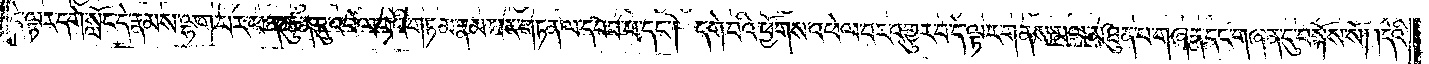དེ་ལྟར་དགེ་སློང་དེ་རྣམས་ལྷག་པར་ཕན་ཚུན་དུ་འབེལ་བའི་གཏམ་རྣམ་པར་གཏན་ལ་དབབ་པ་དང༌། དགེ་བའི་ཕྱོགས་འཕེལ་བར་འགྱུར་པ་དེ་ལྟར་གནས་མལ་མཐུན་པ་གཞན་དང་གཞན་དུ་བསྐོས་སོ། །དེའི་
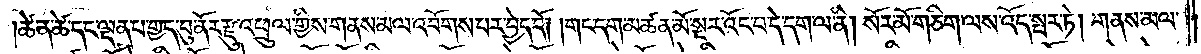ཚེ་ན་ཚེ་དང་ལྡན་པ་གྱད་བུ་ནོར་རྫུ་འཕྲུལ་གྱིས་གནས་མལ་འབོགས་པར་བྱེད་དོ། །གང་དག་མཚན་མོ་སྔར་འོང་བ་དེ་དག་ལ་ནི། སོར་མོ་གཅིག་ལས་འོད་སྤར་ཏེ། གནས་མལ་
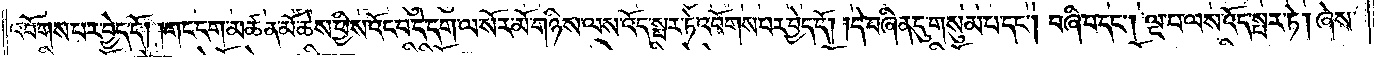འབོགས་པར་བྱེད་དོ། །གང་དག་མཚན་མོ་ཆེས་ཕྱིས་འོང་བ་དེ་དག་ལ་སོར་མོ་གཉིས་ལས་འོད་སྤར་ཏེ་འབོགས་པར་བྱེད་དོ། །དེ་བཞིན་དུ་གསུམ་པ་དང༌། བཞི་པ་དང༌། ལྔ་པ་ལས་འོད་སྤར་ཏེ། ཞེས་
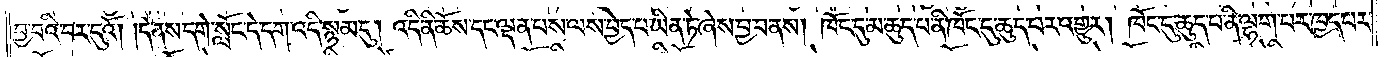བྱ་བའི་བར་དུའོ། །དེ་ནས་དགེ་སློང་དེ་དག་འདི་སྙམ་དུ། འདི་ནི་ཆོས་དང་ལྡན་པས་ལས་བྱེད་པ་ཡིན་ཏེ་ཞེས་བྱ་བ་ནས། ཁོང་དུ་མ་ཆུད་པ་ནི་ཁོང་དུ་ཆུད་པར་འགྱུར། ཁོང་དུ་ཆུད་པ་ནི་ལྷག་པར་ཁྱད་པར་
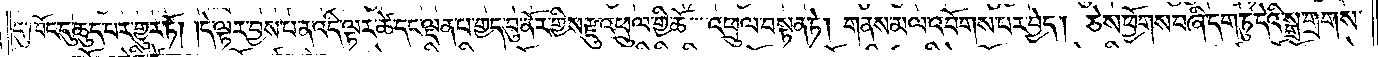དུ་ཁོང་དུ་ཆུད་པར་གྱུར་ཏོ། །དེ་ལྟར་བྱས་པ་ན་འདི་ལྟར་ཚེ་དང་ལྡན་པ་གྱད་བུ་ནོར་གྱིས་རྫུ་འཕྲུལ་གྱི་ཆོ་འཕྲུལ་བསྟན་ཏེ། གནས་མལ་འབོགས་པར་བྱེད། ཅེས་ཕྱོགས་བཞི་དག་ཏུ་དེའི་སྒྲ་གྲགས་
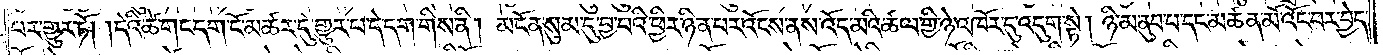པར་གྱུར་ཏོ། །དེའི་ཚེ་གང་དག་ངོ་མཚར་དུ་གྱུར་པ་དེ་དག་གིས་ནི། མངོན་སུམ་དུ་བྱ་བའི་ཕྱིར་ཉིན་པར་འོངས་ནས་འོད་མའི་ཚལ་གྱི་ཉེ་འཁོར་དུ་འདུག་སྟེ། ཉི་མ་ནུབ་པ་དང་མཚན་མོ་འོང་བར་བྱེད་
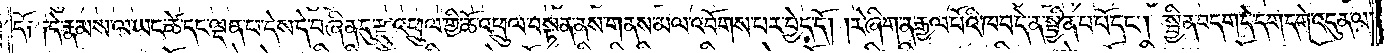དོ། །དེ་རྣམས་ལ་ཡང་ཚེ་དང་ལྡན་པ་དེས་དེ་བཞིན་དུ་རྫུ་འཕྲུལ་གྱི་ཆོས་འཕྲུལ་བསྟན་ནས་གནས་མལ་འབོགས་པར་བྱེད་དོ། །རེ་ཞིག་ན་རྒྱལ་པོའི་ཁབ་དེ་ན་སྦྱིན་པ་པོ་དང༌། སྦྱིན་བདག་དེ་དག་དགེ་འདུན་ལ་
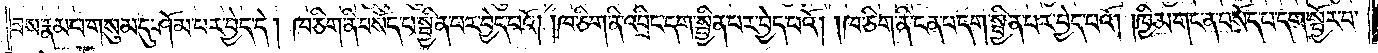ཟས་རྣམ་པ་གསུམ་དུ་ཤོམ་པར་བྱེད་དེ། ཁ་ཅིག་ནི་བསོད་པ་སྦྱིན་པར་བྱེད་པའོ། །ཁ་ཅིག་ནི་འབྲིང་དག་སྦྱིན་པར་བྱེད་པའོ། །ཁ་ཅིག་ནི་ངན་པ་དག་སྦྱིན་པར་བྱེད་པའོ། །ཁྱིམ་གང་ན་བསོད་པ་དག་སྦྱོར་བ་
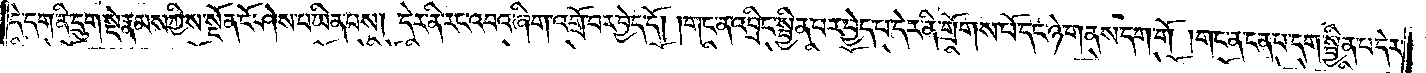དེ་དག་ནི་དྲུག་སྡེ་རྣམས་ཀྱིས་སྔོན་ངོ་ཤེས་པ་ཡིན་པས། དེར་ནི་རང་འབའ་ཞིག་འགྲོ་བར་བྱེད་དོ། །གང་ན་འབྲིང་སྦྱིན་པར་བྱེད་པ་དེར་ནི་གྲོགས་པོ་དང་ཉེ་གནས་དག་གོ །གང་ན་ངན་པ་དག་སྦྱིན་པ་དེར་
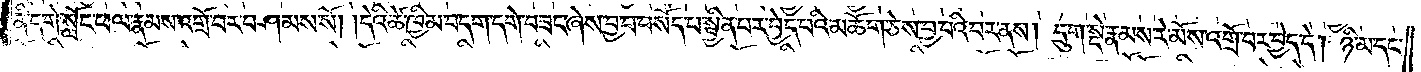ནི་དགེ་སློང་ཕལ་རྣམས་འགྲོ་བར་བཤམས་སོ། །དེའི་ཚེ་ཁྱིམ་བདག་དགེ་བཟང་ཞེས་བྱ་བ་བསོད་པ་སྦྱིན་པར་བྱེད་པའི་མཆོག་ཅེས་བྱ་བའི་བར་ནས། དྲུག་སྡེ་རྣམས་རེ་མོས་འགྲོ་བར་བྱེད་དེ། ཉི་མ་དང་
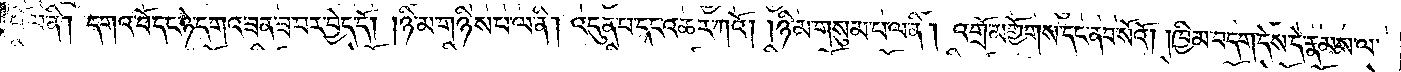པོ་ལ་ནི། དགའ་བོ་དང་ཉེ་དགའ་ཟན་ཟ་བར་བྱེད་དོ། །ཉི་མ་གཉིས་པ་ལ་ནི། འདུན་པ་དང་འཆར་ཀའོ། །ཉི་མ་གསུམ་པ་ལ་ནི། འགྲོ་མགྱོགས་དང་ནབ་སོའོ། །ཁྱིམ་བདག་དེས་དེ་རྣམས་ལ་
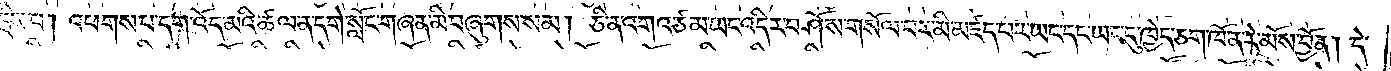དྲིས་པ། འཕགས་པ་དག་འོད་མའི་ཚལ་ན་དགེ་སློང་གཞན་མི་བཞུགས་སམ། ཅི་ན་འགའ་ཙམ་ཡང་འདིར་བཤོས་གསོལ་བར་མི་མཛད་པར་ཡང་དང་ཡང་དུ་ཁྱེད་ཅག་ཁོ་ན་རེ་མོས་བྱོན། དེ་
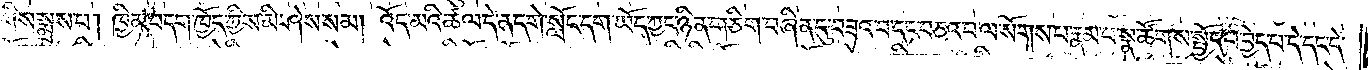དག་གིས་སྨྲས་པ། ཁྱིམ་བདག་ཁྱོད་ཀྱིས་མི་ཤེས་སམ། འོད་མའི་ཚལ་དེ་ན་དགེ་སློང་དག་ཡོད་ཀྱང་ཉིན་གཅིག་བཞིན་དུ་བཟའ་བ་དང་བཅའ་བ་ལ་སོགས་པ་རྣམ་པ་སྣ་ཚོགས་སྤྱོད་པ་བྱེད་པ་དེ་དང་དེ་
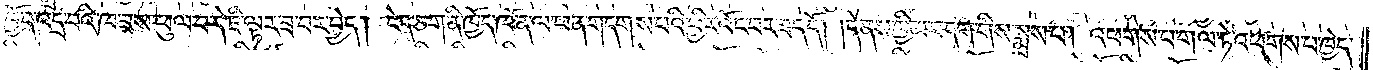དག་ཁྱོད་འདྲ་བའི་ཁ་ཟས་ཕུལ་བ་དེ་ཇི་ལྟར་ཟ་བར་བྱེད། ངེད་ཅག་ནི་ཁྱོད་ཁོ་ན་ལ་ཕན་གདགས་པའི་ཕྱིར་འོང་བར་ཟད་དོ། །དེ་ནས་ཁྱིམ་བདག་གིས་སྨྲས་པ། འཕགས་པ་གལ་ཏེ་འཕགས་པ་ཁྱེད་
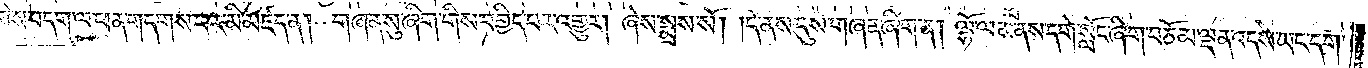ཅག་གིས་བདག་ལ་ཕན་གདགས་པར་མི་མཛད་ན། གཞན་སུ་ཞིག་གིས་བགྱིད་པར་འགྱུར། ཞེས་སྨྲས་སོ། །དེ་ནས་དུས་གཞན་ཞིག་ན། ལྷོ་ལམ་ནས་དགེ་སློང་ཞིག་བཅོམ་ལྡན་འདས་ཡང་དག་
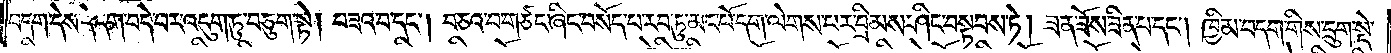བདག་དེས་དེ་དག་བདེ་བར་འདུག་ཏུ་བཅུག་སྟེ། བཟའ་བ་དང༌། བཅའ་བ་གཙང་ཞིང་བསོད་པ་རབ་ཏུ་མང་པོ་དག་ལེགས་པར་བྲིམས་ཤིང་བསྟབས་ཏེ། ཟན་ཟོས་ཟིན་པ་དང༌། ཁྱིམ་བདག་གིས་དྲུག་སྡེ་
